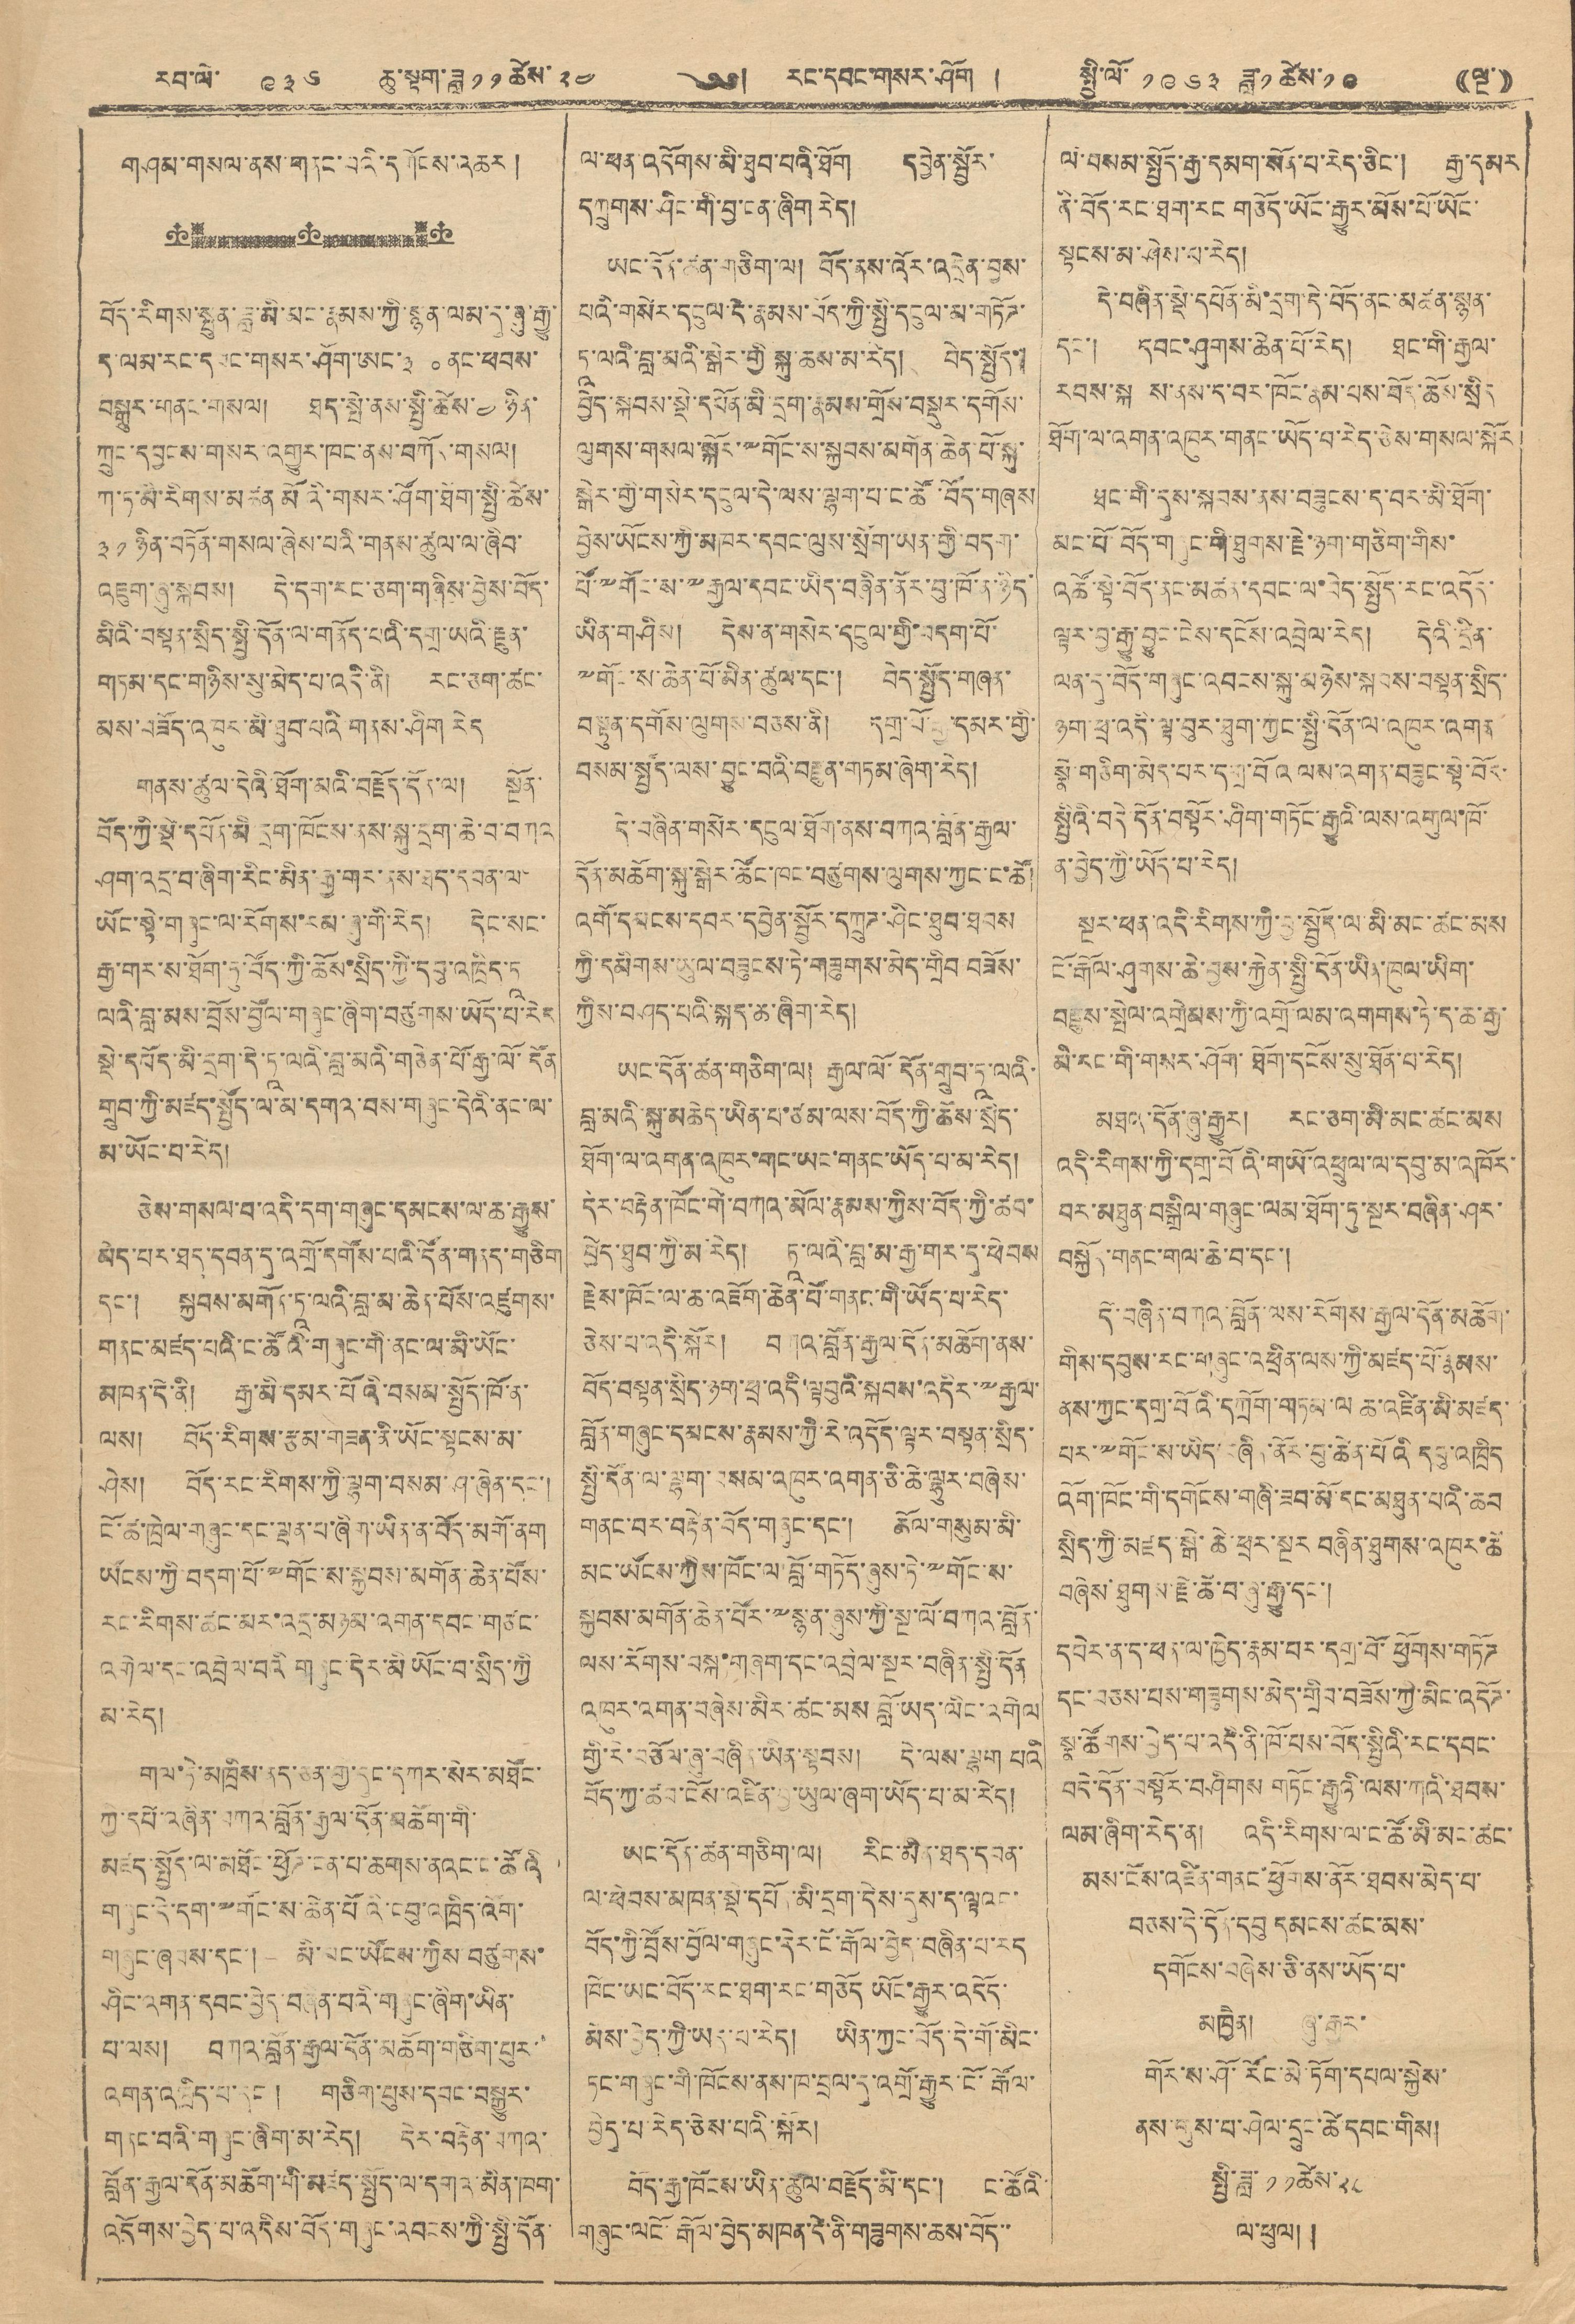རབ་ལོ་ ༩༣༦ ཆུ་སྟག་ཟླ་ ༡༡ ཚེས་ ༢༤ ༄༅། རང་དབང་གསར་ཤོག ། སྤྱི་ལོ་ ༡༩༦༣ ཟླ་ ༡ ཚེས་ ༡༩ ((ལྔ་))
གཤམ་གསལ་ནས་གནང་བའི་དགོངས་འཆར།
བོད་རིགས་སྤུན་ཟླ་མི་མང་རྣམས་ཀྱི་སྙན་ལམ་དུ་ཞུ་རྒྱུ་
ད་ལམ་རང་དབང་གསར་ཤོག་ཨང་༣ ༠ནང་ཕབས་
བསྒྱུར་གནང་གསལ། ཐད་སྤེ་ནས་སྤྱི་ཚེས་༤ ཉིན་
ཀྲུང་དབྱངས་གསར་འགྱུར་ཁང་ནས་བཀོར་གསལ།
ཀ་ཏ་མི་རིགས་མཚན མོའི་གསར་ཤོག་ཐོག་སྤྱི་ཚེས་
༣༡ ཉིན་བཏོན་གསལ་ཞེས་པའི་གནས་ཚུལ་ལ་ཞིབ་
འཇུག་ཞུ་སྐབས། དེ་དག་རང་ཅག་གཞིས་བྱེས་བོད་
མིའི་བསྟན་སྲིད་སྤྱི་དོན་ལ་གནོད་པའི་དགྲ་ཡའི་རྫུན་
གཏམ་དང་གཉིས་སུ་མེད་པ་འདི་ནི། རང་ཅག་ཚང་
མས་བཟོད་འཁུར་མི་ཐུབ་པའི གནས་ཤིག རེད
གནས་ཚུལ་དེའི་ཐོག་མའི་བརྗོད་དོན་ལ། སྔོན་
བོད་ཀྱི་སྡེ་དཔོན་མི་དྲག་ཁོངས་ནས་སྐུ་དྲག་ཆེ་བ་བཀའ
ཤག་འདྲ་བ་ཞིག་རིང་མིན་རྒྱ་གར་ནས་ཐད་དབན་ལ་
ཡོང་སྟེ་གཞུང་ལ་རོགས་རམ་ཞུ་གི་རེད། དེང་སང་
རྒྱ་གར་ས་ཐོག་ཏུ་བོད་ཀྱི་ཆོས་སྲིད་ཀྱི་དབུ་འཁྲིད་ཏཱ
ལའི་བླ་མས་བྲོས་བྱོལ་གཞུང་ཞིག་བཙུགས་ཡོད་པ་རེད
སྡེ་དཔོན་མི་དྲག་དེ་ཏཱ་ལའི་བླ་མའི་གཅེན་པོ་རྒྱ་ལོ་དོན
གྲུབ་ཀྱི་མཛད་སྤྱོད་ལ་མ་དགའ་བས་གཞུང་དེའི་ནང་ལ་
མ་ཡོང་པ་རེད།
ཅེས་གསལ་བ་འདི་དག་གཞུང་དམངས་ལ་ཆ་རྒྱུས་
མེད་པར་ཐད་དབན་དུ་འགྲོ་དགོས་པའི་དོན་གནད་གཅིག
དང་། སྐྱབས་མགོན་ཏཱ་ལའི་བླ་མ་ཆེན་པོས་འཛུགས་
གནང་མཛད་པའི་ང་ཚོའི་གཞུང་གི་ནང་ལ་མི་ཡོང་
མཁན་དེ་ནི། རྒྱ་མི་དམར་པོའི་བསམ་སྤྱོད་ཁོ་ན་
ལས། བོད་རིགས་རྩམ་གཟན་ནི་ཡོང་སྟངས་མ་
ཤེས། བོད་རང་རིགས་ཀྱི་ལྷག་བསམ་ཤ་ཞེན་དང་།
ངོ་ཚ་ཁྲེལ་གཞུང་དང་ལྡན་པ་ཞིག་ཡིན་ན་བོད་མགོ་ནག
ཡོངས་ཀྱི་བདག་པོ་༸གོང་ས་སྐྱབས་མགོན་ཆེན་པོས་
རང་རིགས་ཚང་མར་འདྲ་མཉམ་འགན་དབང་གཙང་
འགེལ་དང་འབྲེལ་བའི གཞུང་དེར་མི ཡོང་བ་སྲིད་ཀྱི
མ་རེད།
གལ་ཏེ་མཁྲིས་ནད་ཅན་གྱི་དུང་དཀར་སེར་མཐོང་
ཀྱི་དཔོ་འཞིན་བཀའ་བློན་རྒྱལ་དོན་མཆོག་གི་
མཛད་སྤྱོད་ལ་མཐོང་ཕྱོཊ་ངན་པ་ཆགས་ནའང་ང་ཚོའི
གཞུང་དེ་དག་༸གོང་ས་ཆེན་པའི་དབུ་འཁྲིད་འོག་
གཞུང་ཞབས་དང་། མི་མང་ཡོངས་ཀྱིས་བཙུགས་
ཤིང་འགན་དབང་བྱེད་བཞིན་པའི་གཞུང་ཞིག་ཡིན་
པ་ལས། བཀའ་བློན་རྒྱལ་དོན་མཆོག་གཅིག་པུར་
འགན་འཁྲིད་པ་དང་། གཅིག་པུས་དབང་བསྒྱུར་
གནང་བའི་གཞུང་ཞིག་མ་རེད། དེར་བརྟེན་བཀའ་
བློན་རྒྱལ་དོན་མཆོག་གི་མཛད་སྤྱོད་ལ་དགའ་མིན་ཁག་
འདོགས་བྱེད་པ་འདིས་བོད་གཞུང་འབངས་ཀྱི་སྤྱི་དོན་
ལ་ཕན་འདོགས་མི་ཐུབ་པའི་ཐོག དབྱིན་སྦྱོར་
དཀྲུངས་ཤིང་གི་བྱ་ངན་ཞིག རེད།
ཡང་དོན་ཚན་གཅིག་ལ། བོད་ནས་འོར་འདྲེན་བྱས་
པའི་གསེར་དངུལ་དེ་རྣམས་བོད་ཀྱི་སྤྱི་དངུལ་མ་གཏོཊ་
ཏཱ་ལའི་བླ་མའི་སྒེར་གྱི་སྐུ་ཆས་མ་རེད། བེད་སྤྱོད་
བྱེད་སྐབས་སྡེ་དཔོན་མི་དྲག་རྣམས་གྲོས་བསྡུར་དགོས་
ལུགས་གསལ་སྐོར་༸གོང་ས་སྐྱབས་མགོན་ཆེན་པོ་སྐུ་
སྒེར་གྱི་གསེར་དངུལ་དེ་ལས་ལྷག་པ་ང་ཚོ་བོད་གཞས
བྱེས་ཡོངས་ཀྱི་མཁར་དབང་ལུས་སྲོག་ཡན་གྱི་བདག་
པོ་༸གོང་ས་༸རྒྱལ་དབང་ཡིད་བཞིན་ནོར་བུ་ཁོ་ན་ཉིད་
ཡིན་གཤིས། དེས་ན་གསེར་དངུལ་གྱི་བདག་པོ་
༸གོང་ས་ཆེན་པོ་མིན་ཚུལ་དང་། བེད་སྤྱོད་གཞན་
བསྟུན་དགོས་ལུགས་བཅས་ནི། དགྲ་བོ་རྒྱ་དམར་གྱི་
བསམ་སྤྱོད་ལས་བྱུང་བའི་བརྫུན་གཏམ་ཞེག་རེད།
དེ་བཞིན་གསེར་དངུལ་ཐོག་ནས་བཀའ་བློན་རྒྱལ་
དོན་མཆོག་སྐུ་སྒེར་ཚོང་ཁང་བཙུགས་ལུགས་ཀྱང་ང་ཚོ།
འགོ་དམངས་དབར་དབྱེན་སྦྱོར་དཀྲུཊ་ཤིང་ཐུབ་ཐབས
ཀྱི་དམིགས་ཡུལ་བཟུངས་ཏེ་གཟུགས་མེད་གྲིབ བཟོས་
ཀྱིས་བཤད་པའི་སྐད་ཆ་ཞིག་རེད།
ཡང་དོན་ཚན་གཅིག་ལ། རྒྱལ་ལོ་དོན་གྲུབ་ཏཱ་ལའི་
བླ་མའི་སྐུ་མཆེད་ཡིན་པ་ཙམ་ལས་བོད་ཀྱི་ཆོས་སྲིད་
ཐོག་ལ་འགན་འཁུར་གང་ཡང་གནང་ཡོད་པ་མ་རེད།
དེར་བརྟེན་ཁོང་གི་བཀའ་མོལ་རྣམས་ཀྱིས་བོད་ཀྱི་ཚབ་
བྱེད་ཐུབ་ཀྱི་མ་རེད། ཏཱ་ལའི་བླ་མ་རྒྱ་གར་དུ་ཕེབས
རྗེས་ཁོང་ལ་ཆ་འཇོག་ཆེན་པོ་གནང་གི་ཡོད་པ་རེད་
ཅེས་པ་འདི་སྐོར། བཀའ་བློན་རྒྱལ་དོན་མཆོག་ནས་
བོད་བསྟན་སྲིད་ཉག་ཕྲ་འདི་ལྟབུའི་སྐབས་འདིར་༸རྒྱལ་
བློན་གཞུང་དམངས་རྣམས་ཀྱི་རེ་འདོད་ལྟར་བསྟན་སྲིད་
སྤྱི་དོན་ལ་ལྷག་བསམ་འཁུར་འགན་ཅི་ཚེ་ལྷུར་བཞེས
གནང་བར་བརྟེན་བོད་གཞུང་དང་། ཆོལ་གསུམ་མི་
མང་ཡོངས་ཀྱིས་ཁོང་ལ་བློ་གཏོད་ཞུས་ཏེ་༸གོང་ས་
སྐྱབས་མགོན་ཆེན་པོར་༸སྙན་ཞུས་ཀྱི་སྔ་ལོ་བཀའ་བློན་
ལས་རོགས་བསྐ་གཞག་དང་འབྲེལ་སྔར་བཞིན་སྤྱི་དོན
འཁུར་འགན་བཞེས་མིར་ཚང་མས བློ་ཡད་ཡིང་འགེལ
གྱི་རི་བཅོལ་ཞུ་བཞིན་ཡིན་སྟབས། དེ་ལས་ལྷག པའི
བོད་ཀྱི་ཚབ་ངོས་འཛིན་བྱགྱ་ཡུལ་ཞག་ཡོད་པ་མ་རེད།
ཡང་དོན་ཚན་གཅིག་ལ། རིང་མིན་ཐད་དབན་
ལ་ཕེབས་མཁན་སྡེ་དཔོན་མི་དྲག་དེས་དུས་ད་ལྟའང་
བོད་ཀྱི་བྲོས་བྱོལ་གཞུང་དེར་ངོ་རྒོལ་བྱེད་བཞིན་པ་རེད་
ཁོང་ཡང་བོད་རང་ཐག་རང་གཅོད་ཡོང་རྒྱུར་འདོད་
མེས་བྱེད་ཀྱི་ཡོད་པ་རེད། ཡིན་ཀྱང་བོད་དེ་གོ་མིང་
ཏང་གཞུང་གི་ཁོངས་ནས་ཁ་བྲལ་དུ་འགྲོ་རྒྱུར་ངོ་རྒོལ་
བྱེད་པ་རེད་ཅེས་པའི་སྐོར།
བོད་རྒྱ་ཁོངས་ཡིན་ཚུལ་བརྗོད་མི་དང་། ང་ཚོའི་
གཞུང་ལངོ་རྒོལ་བྱེད་མཁན་དེ་ནི་གཟུགས་ཆས་བོད་་
ལ་བསམ་སྤྱོད་རྒྱ་དམག་སོན་པ་རེད་ཅིང་། རྒྱ་དམར
ནི་བོད་རང་ཐག་རང གཅོད་ཡོང་རྒྱུར་མོས་པོ་ཡོང་
སྟངས་མ་ཤེས་པ་རེད།
དེ་བཞིན་སྡེ་དཔོན་མི་དྲག་དེ་བོད་ནང་མཚན་སྙན་
དང་། དབང་ཤུགས་ཆེན་པོ་རེད། ཐང་གི་རྒྱལ་
རབས་སྐབས་ནས་ད་བར་ཁོང་རྣམ་པས་བོད་ཆོས་སྲིད
ཐོག་ལ་འགན་འཁུར་གནང་ཡོད་པ་རེད་ཅེས་གསལ་སྐོར
ཐང་གི་དུས་སྐབས་ནས་བཟུངས་ད་བར་མི་ཐོག་
མང་པོ་བོད་གཞུང་གི་ཐུགས་རྗེ་ཉག་གཅིག་གིས་
འཚོ་སྟེ་བོད་ནང་མཚན་དབང་ལ་བེད་སྤྱོད་རང་འདོད་
ལྟར་བྱ་རྒྱུ་བྱུང་ངེས་དངོས་འབྲེལ་རེད། དེའི་དྲིན་
ལན་དུ་བོད་གཞུང་འབངས་སྐུ་མཉེས་སྐབས་བསྟན་སྲིད་
ཉག་ཕྲ་འདི་ལྟ་བུར་ཐུག་ཀྱང་སྤྱི་དོན་ལ་འཁུར་འགན
སྣེ་གཅིག་མེད་པར་དགྲ་བོའ ལས་འགན་བཟུང་སྟེ་བོད་
སྤྱིའི་བདེ དོན་བསྟོར་ཤིག་གཏོང་རྒྱུའི་ལས་འགུལ་ཁོ་
ན་བྱེད་ཀྱི་ཡོད་པ་རེད།
སྔར་ཕན་འདི་རིགས་ཀྱི་བྱ་སྤྱོད་ལ་མི་མང་ཚང་མས
ངོ་རྒོལ་ཤུགས་ཆེ་བྱས་རྐྱེན་སྤྱི་དོན་ཡིན་ཁུལ་ཡིག་
བརྗུས་སྤེལ་འགྲེམས་ཀྱི་འགྲོ་ལམ་འགགས་ཏེ་ད་ཆ་རྒྱ་
མི་རང་གི་གསར་ཤོག་ཐོག་དངོས་སུ་ཐོན་པ་རེད།
མཐའ་དོན་ཞུ་རྒྱུར། རང་ཅག་མི་མང་ཚང་མས
འདི་རིགས་ཀྱི་དགྲ་བོའི་གཡོ་འཕྲུལ་ལ་དབུ་མ་འཁོར་
བར་མཐུན་བསྒྲིལ་གཞུང་ལམ་ཐོག་ཏུ་སྔར་བཞིན་ཤར་
བསྐྱོད་གནང་གལ་ཆེ་བ་དང་།
དེ་བཞིན་བཀའ་བློན་ལས་རོགས་རྒྱལ་དོན་མཆོག་
གིས་དབུས་རང་གཞུང་འཕྲིན་ལས་ཀྱི་མཛད་པོ་རྣམས་
ནས་ཀྱང་དགྲ་བོའི་དཀྲོག་གཏམ་ལ ཆ་འཛིན་མི་མཛད་
པར་༸གོང་ས་ཡིད་བཞིན་ནོར་བུ་ཆེན་པོའི དབུ་འཁྲིད
འོག་ཁོང་གི་དགོངས་གཞི་ཟབ་མོ་དང་མཐུན་པའི་ཆབ
སྲིད་ཀྱི་མཛད་སྒེ་ཆེ་ཕྲང་སྔར བཞིན་ཐུགས་འཁུར་ཆོ
བཞེས་ཐུགས་རྗེ་ཚེ་བ་ཞུ་རྒྱུ་དང་།
དཔེར་ན་ད་ཕན་ལ་ཁྱེད་རྣམས་བར་དགྲ་བོ་ཕྱོགས་གཏོཊ
དང་བཅས་པས་གཟུགས་མེད་གྲིབ་བཟོས་ཀྱི་མིང་འདོཊ་
སྣ་ཚོགས་བྱེད་པ་འདི་ནི་ཁོ་པས་བོད་སྤྱིའི་རང་དབང་
བདེ་དོན་བསྟོར་བཤིགས གཏོང་རྒྱུའི་ལས་ཀའི་ཐབས་
ལམ་ཞིག་རེད་ན། འདི་རིགས་ལ་ང་ཚོ་མི་མང་ཚང་
མས་ངོས་འཛིན་གནང་ཕྱོགས་ནོར་ཐབས་མེད་པ་
བཅས་དེ་དོན་དབུ དམངས་ཚང་མས་
དགོངས་བཞེས་ཅི་ནས་ཡོད་པ་
མཁྱེེན། ཞུ་རྒྱུར་
གོར་ས་ཤོ་རོང་མེ་ཏོག་དཔལ་སྐྱེས་
ནས་གུས་པ་ཤེལ་དྲུང་ཚེ་དབང་གིས།
སྤྱི་ཟླ་ ༡༡ ཚེས་ ༢༨
ལ་ཕུལ།།
